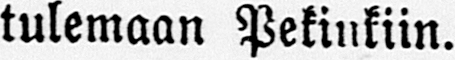tulemaan Pekinkiin.
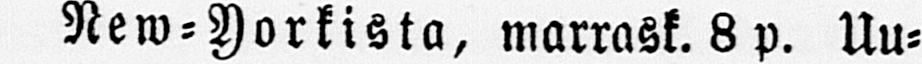New-Yorkista, marrask. 8 p. Uu-
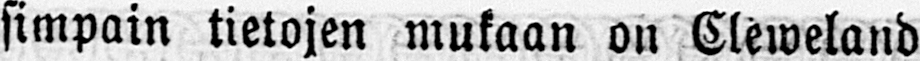simpain tietojen mukaan on Cleweland
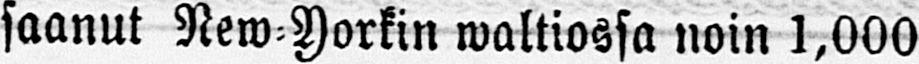saanut New-Yorkin waltiossa noin 1,000
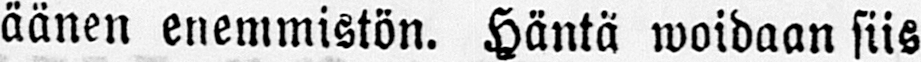äänen enemmistön. Häntä woidaan siis
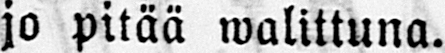jo pitää mwlittuna.
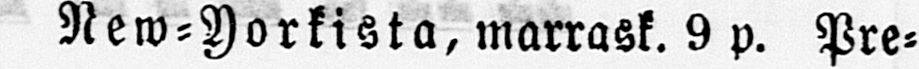New-Yorkista, marrask. 9 p. Pre-
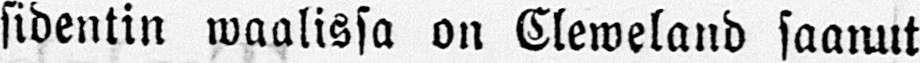sidentin waalissa on Cleweland saanut
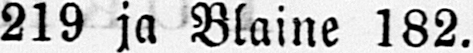219 ja Blaine 182.
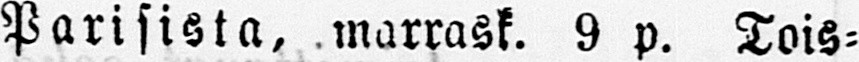Parisista, marrask. 9 p. Tois-
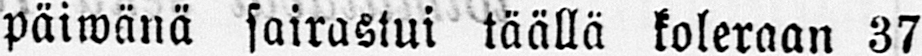päiwänä sairastui täällä koleraan 37
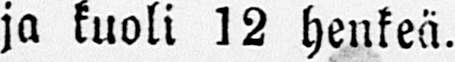ja kuoli 12 henkeä.
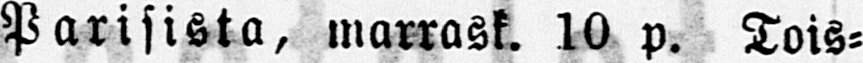Parisista, marrask. 10 p. Tois-
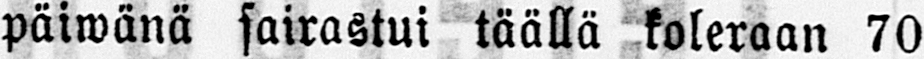päiwänä sairastui täällä koleraan 70
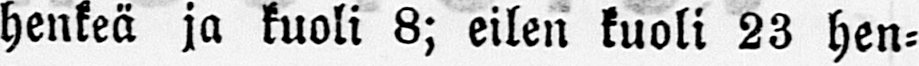henkeä ja kuoli 8; eilen kuoli 23 hen-
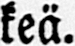keä.
